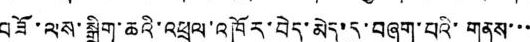བཟོ་ལས་སྒྲིག་ཆའི་འཕྲུལ་འཁོར་བེད་མེད་དུ་བཞག་པའི་གནས་་་
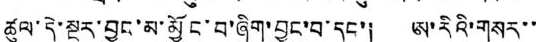ཚུལ་དེ་སྔར་བྱུང་མ་མྱོང་བ་ཞིག་བྱུང་བ་དང་། ཨ་རིའི་གསར་་
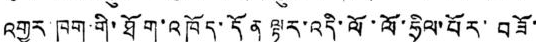འགྱུར་ཁག་གི་ཐོག་འཁོད་དོན ལྟར་འདི་ལོ་ལོ་ཧྲིལ་པོར་བཟོ་
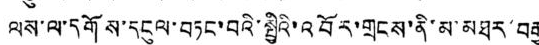ལས་ལ་དགོས་དངུལ་བཏང་བའི་སྤྱིའི་འབོར་གྲངས་ནི་མ་མཐར་བརྒྱ
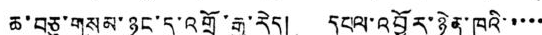ཆ་བཅུ་གསུམ་ཉུང་དུ་འགྲོ་རྒྱུ་རེད། དཔལ་འབྱོར་ཉེན་ཁའི་་་་་
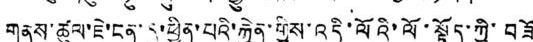གནས་ཚུལ་ཇེ་ངན་དུ་ཕྱིན་པའི་རྐྱེན་གྱིས་འདི་ལོའི་ལོ་སྟོད་ཀྱི་བཟོ
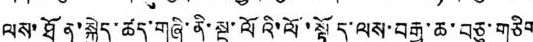ལས་ཐོན་སྐྱེད་ཚད་གཞི་ནི་སྔ་ལོའི་ལོ་སྟོད་ལས་བརྒྱ་ཆ་བཅུ་གཅིག
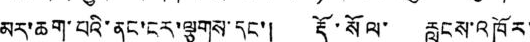མར་ཆག་པའི་ནང་ངར་ལྕགས་དང་། རྡོ་སོལ་ རླངས་འཁོར་
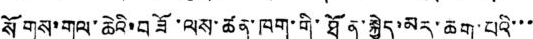སོགས་གལ་ཆེའི་བཟོ་ལས་ཚན་ཁག་གི་ཐོན་སྐྱེད་མར་ཆག་པའི་་་
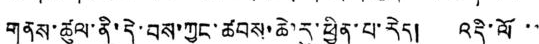གནས་ཚུལ་ནི་དེ་བས་ཀྱང་ཚབས་ཆེ་རུ་ཕྱིན་པ་རེད། འདི་ལོ་་
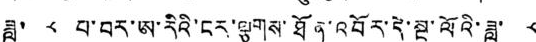ཟླ་ ༨ པ་བར་ཨ་རིའི་ངར་ལྕགས་ཐོན་འབོར་དེ་སྔ་ལོའི་ཟླ་ ༨
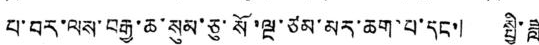པ་བར་ལས་བརྒྱ་ཆ་སུམ་ཅུ་སོ་ལྔ་ཙམ་མར་ཆག་པ་དང་། སྤྱི་ཟླ
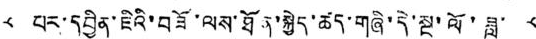༨ པར་དབྱིན་ཇིའི་བཟོ་ལས་ཐོན་སྐྱེད་ཚད་གཞི་དེ་སྔ་ལོ་ཟླ་ ༨
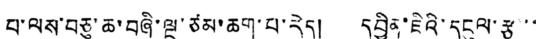པ་ལས་བཅུ་ཆ་བཞི་ལྔ་ཙམ་ཆག་པ་རེད། དབྱིན་ཇིའི་དངུལ་རྩ་་
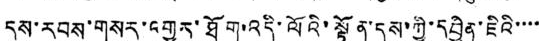དུས་རབས་གསར་འགྱུར་ཐོག་འདི་ལོའི་སྟོན་དུས་ཀྱི་དབྱིན་ཇིའི་་་་་
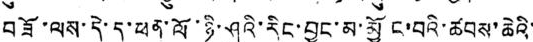བཟོ་ལས་དེ་ད་ཕན་ལོ་ཉི་ཤུའི་རིང་བྱུང་མ་མྱོང་བའི་ཚབས་ཆེའི་
